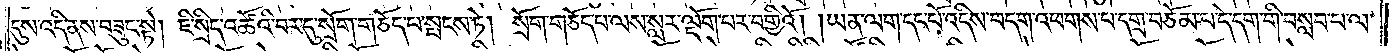དུས་འདི་ནས་བཟུང་སྟེ། ཇི་སྲིད་འཚོའི་བར་དུ་སྲོག་གཅོད་པ་སྤངས་ཏེ། སྲོག་གཅོད་པ་ལས་སླར་ལྡོག་པར་བགྱིའོ། །ཡན་ལག་དང་པོ་འདིས་བདག་འཕགས་པ་དགྲ་བཅོམ་པ་དེ་དག་གི་བསླབ་པ་ལ་
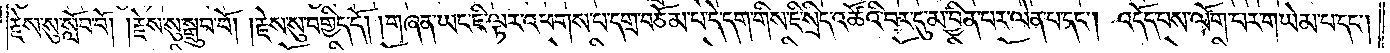རྗེས་སུ་སློབ་བོ། །རྗེས་སུ་སྒྲུབ་བོ། །རྗེས་སུ་བགྱིད་དོ། །གཞན་ཡང་ཇི་ལྟར་འཕགས་པ་དགྲ་བཅོམ་པ་དེ་དག་གིས་ཇི་སྲིད་འཚོའི་བར་དུ་མ་བྱིན་པར་ལེན་པ་དང༌། འདོད་པས་ལོག་པར་གཡེམ་པ་དང༌།
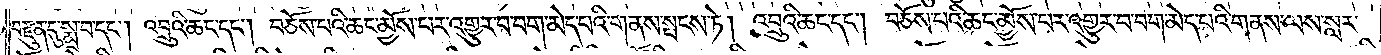བརྫུན་དུ་སྨྲ་བ་དང་༑ འབྲུའི་ཆང་དང༌། བཅོས་པའི་ཆང་མྱོས་པར་འགྱུར་བ་བག་མེད་པའི་གནས་སྤངས་ཏེ། འབྲུའི་ཆང་དང༌། བཅོས་པའི་ཆང་མྱོས་པར་འགྱུར་བ་བག་མེད་པའི་གནས་ལས་སླར་
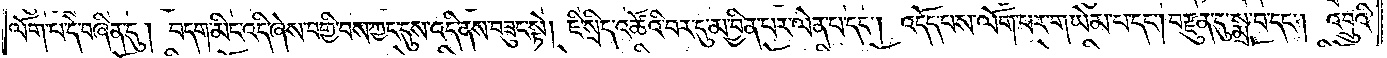ལོག་པ་དེ་བཞིན་དུ། བདག་མིང་འདི་ཞེས་བགྱི་བས་ཀྱང་དུས་འདི་ནས་བཟུང་སྟེ། ཇི་སྲིད་འཚོའི་བར་དུ་མ་བྱིན་པར་ལེན་པ་དང༌། འདོད་པས་ལོག་པར་གཡེམ་པ་དང༌། བརྫུན་དུ་སྨྲ་བ་དང༌། འབྲུའི་
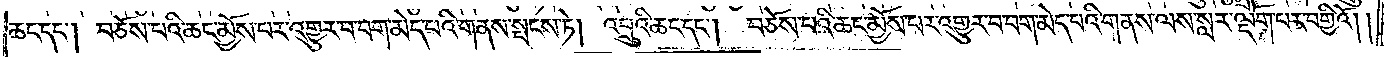ཆང་དང༌། བཅོས་པའི་ཆང་མྱོས་པར་འགྱུར་བ་བག་མེད་པའི་གནས་སྤངས་ཏེ། འབྲུའི་ཆང་དང༌། བཅོས་པའི་ཆང་མྱོས་པར་འགྱུར་བ་བག་མེད་པའི་གནས་ལས་སླར་ལྡོག་པར་བགྱིའོ། །
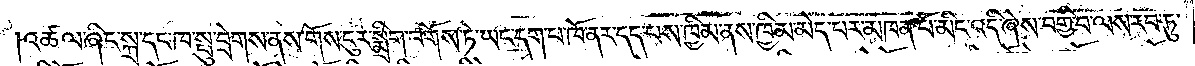འཚལ་ཞིང་སྐྲ་དང་ཁ་སྤུ་བྲེགས་ནས་གོས་ངུར་སྨྲིག་བགོས་ཏེ་ཡང་དག་པ་ཁོ་ནར་དད་པས་ཁྱིམ་ནས་ཁྱིམ་མེད་པར་མཁན་པོ་མིང་འདི་ཞེས་བགྱི་བ་ལས་རབ་ཏུ་
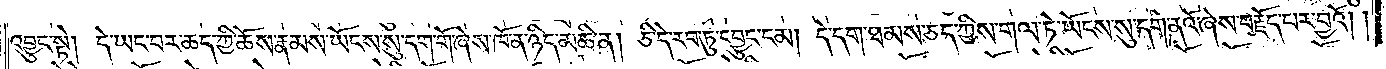འབྱུང་སྟེ། དེ་ཡང་བར་ཆད་ཀྱི་ཆོས་རྣམས་ཡོངས་སུ་དག་གོ་ཞེས་ཁོ་ན་ཉིད་མཆི་ན། ཅི་དེ་རབ་ཏུ་དབྱུང་ངམ། དེ་དག་ཐམས་ཅད་ཀྱིས་གལ་ཏེ་ཡོངས་སུ་དག་ནའོ་ཞེས་བརྗོད་པར་བྱའོ། །
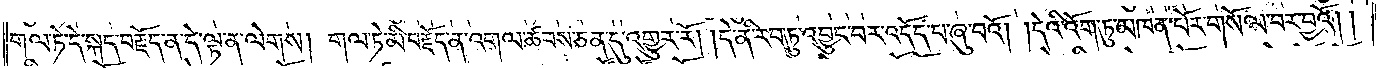གལ་ཏེ་དེ་སྐད་བརྗོད་ན་དེ་ལྟ་ན་ལེགས། གལ་ཏེ་མི་བརྗོད་ན་འགལ་ཚབས་ཅན་དུ་འགྱུར་རོ། །དེ་ནི་རབ་ཏུ་འབྱུང་བར་འདོད་པ་ཞུ་བའོ། །དེའི་འོག་ཏུ་མཁན་པོར་གསོལ་བར་བྱའོ། །
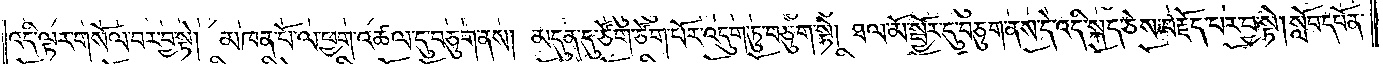འདི་ལྟར་གསོལ་བར་བྱ་སྟེ། མཁན་པོ་ལ་ཕྱག་འཚལ་དུ་བཅུག་ནས། མདུན་དུ་ཙོག་ཙོག་པོར་འདུག་ཏུ་བཅུག་སྟེ། ཐལ་མོ་སྦྱོར་དུ་བཅུག་ནས་དེ་འདི་སྐད་ཅེས་བརྗོད་པར་བྱ་སྟེ། སློབ་དཔོན་
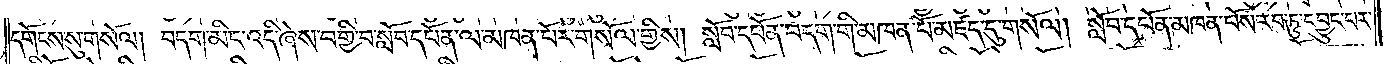དགོངས་སུ་གསོལ། བདག་མིང་འདི་ཞེས་བགྱི་བ་སློབ་དཔོན་ལ་མཁན་པོར་གསོལ་གྱིས། སློབ་དཔོན་བདག་གི་མཁན་པོ་མཛད་དུ་གསོལ། སློབ་དཔོན་མཁན་པོས་རབ་ཏུ་དབྱུང་པར་
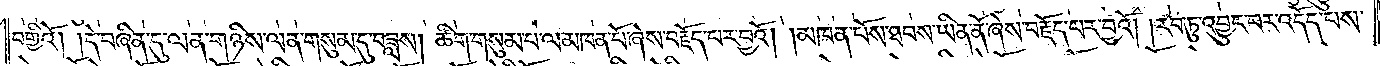བགྱིའོ། །དེ་བཞིན་དུ་ལན་གཉིས་ལན་གསུམ་དུ་བཟླས། ཚིག་གསུམ་པ་ལ་མཁན་པོ་ཞེས་བརྗོད་པར་བྱའོ། །མཁན་པོས་ཐབས་ཡིན་ནོ་ཞེས་བརྗོད་པར་བྱའོ། །རབ་ཏུ་འབྱུང་བར་འདོད་པས་
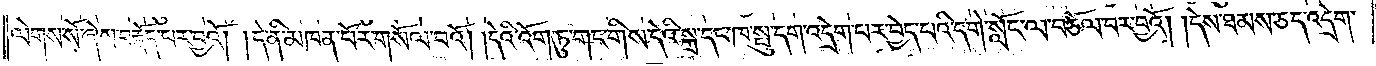ལེགས་སོ་ཞེས་བརྗོད་པར་བྱའོ། །དེ་ནི་མཁན་པོར་གསོལ་བའོ། །དེའི་འོག་ཏུ་གང་གིས་དེའི་སྐྲ་དང་ཁ་སྤུ་དག་འདྲེག་པར་བྱེད་པའི་དགེ་སློང་ལ་བཅོལ་བར་བྱའོ། །དེས་ཐམས་ཅད་འདྲེག་
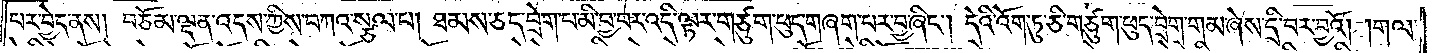པར་བྱེད་ནས། བཅོམ་ལྡན་འདས་ཀྱིས་བཀའ་སྩལ་པ། ཐམས་ཅད་བྲེག་པ་མི་བྱ་བར་འདི་ལྟར་གཙུག་ཕུད་གཞག་པར་བྱ་ཞིང༌། དེའི་འོག་ཏུ་ཅི་གཙུག་ཕུད་བྲེག་གམ་ཞེས་དྲི་བར་བྱའོ། །གལ་
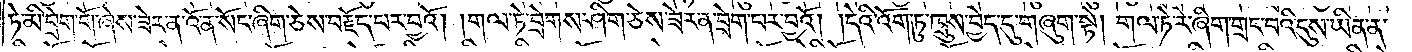ཏེ་མི་བྲེག་གོ་ཞེས་ཟེར་ན་འོ་ན་སོག་ཞིག་ཅེས་བརྗོད་པར་བྱའོ། །གལ་ཏེ་བྲེགས་ཤིག་ཅེས་ཟེར་ན་བྲེག་པར་བྱའོ། །དེའི་འོག་ཏུ་ཁྲུས་བྱེད་དུ་གཞུག་སྟེ། གལ་ཏེ་རེ་ཞིག་གྲང་བའི་དུས་ཡིན་ན་
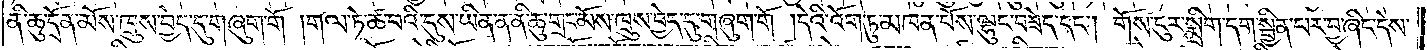ནི་ཆུ་དྲོན་མོས་ཁྲུས་བྱེད་དུ་གཞུག་གོ །གལ་ཏེ་ཚ་བའི་དུས་ཡིན་ན་ནི་ཆུ་གྲང་མོས་ཁྲུས་བྱེད་དུ་གཞུག་གོ །དེའི་འོག་ཏུ་མཁན་པོས་ལྷུང་བཟེད་དང༌། གོས་ངུར་སྨྲིག་དག་སྦྱིན་པར་བྱ་ཞིང་དེས་
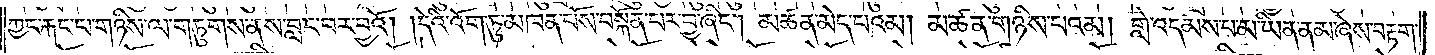ཀྱང་རྐང་པ་གཉིས་ལ་གཏུགས་ནས་བླང་བར་བྱའོ། །དེའི་འོག་ཏུ་མཁན་པོས་བསྐོན་པར་བྱ་ཞིང༌། མཚན་མེད་པའམ། མཚན་གཉིས་པའམ། གླེ་འདམས་པ་མ་ཡིན་ནམ་ཞེས་བརྟག་
